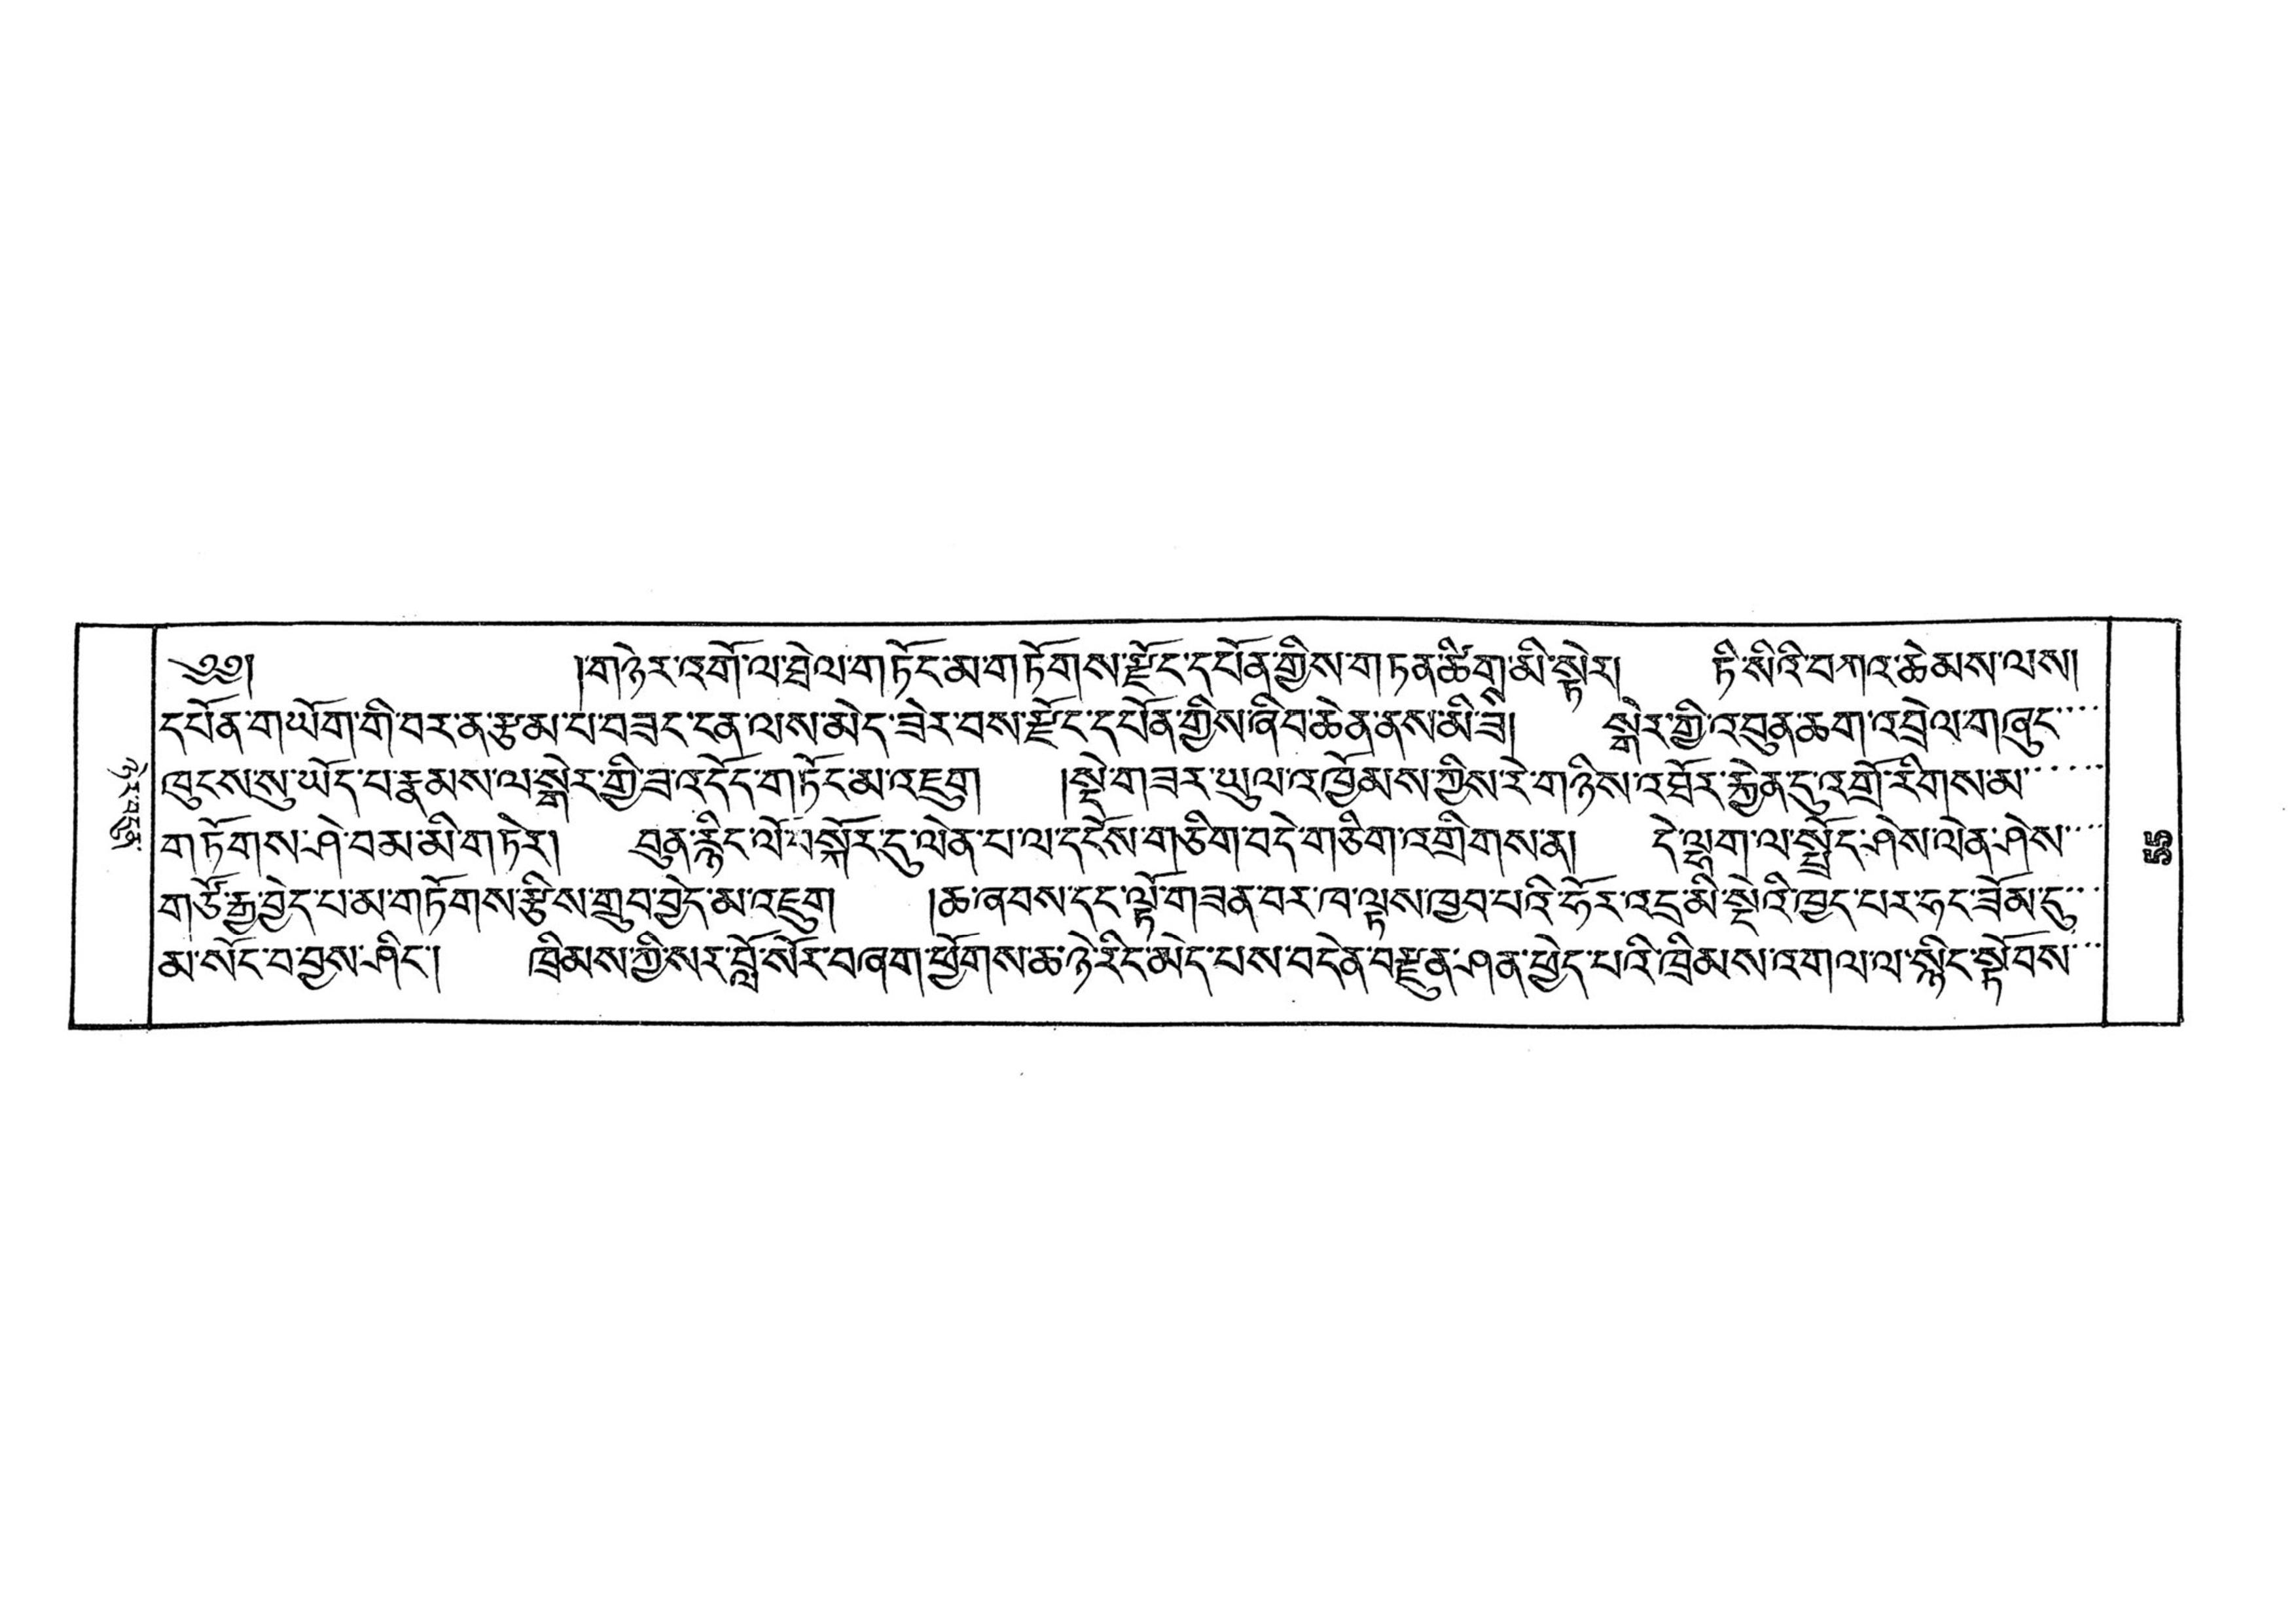ཉེར་བདུན་
༄༅།  །གཉེར་འགོ་ལ་ཐེལ་གཏོང་མ་གཏོགས་རྫོང་དཔོན་གྱིས་གཏན་ཚིགས་མི་སྟེར། ཏི་སིའི་བཀའ་ཆེམས་ལས།
དཔོན་གཡོག་གི་བར་ན་རྩམ་པ་བཟང་ངན་ལས་མེད་ཟེར་བས་རྫོང་དཔོན་གྱིས་ཞིབ་ཆེན་ནས་མི་ཟ། སྒེར་གྱི་འབུན་ཆག་འབྲེལ་གཞུང་་་་
ཁུངས་སུ་ཡོད་པ་རྣམས་ལ་སྒེར་གྱི་ཟ་འདོད་གཏོང་མ་འཇུག །སྡེ་གཟར་ཡུལ་འཁྱོམས་ཀྱིས་རེ་གཉིས་འཐོར་རྐྱེན་དུ་འགྲོ་རིགས་མ་་་་་
གཏོགས་ཤེ་བམ་མི་གཏེར། བུན་རྙིང་ལོ་བསྐོར་དུ་ལེན་པ་ལ་དངོས་གཅིག་བདེ་གཅིག་འགྲིགས་ན། དེ་ལྷག་ལ་སྤྲོད་ཤེས་ལེན་ཤེས་་་་
གཙོ་རྒྱ་བྱེད་པ་མ་གཏོགས་རྩིས་གྲུབ་བྱེད་མ་འཇུག །ཆ་ཞབས་དང་ལྟོ་གཟན་པར་ཁ་ལྟས་ཁྱབ་པའི་ཧོར་འདྲ་མི་སྡེའི་ཁྱད་པར་ཧང་ཟོམ་དུ་་་
མ་སོང་བ་བྱས་ཤིང་། ཁྲིམས་ཀྱི་སར་བློ་སོར་བཞག་ཕྱོགས་ཆ་ཉེ་རིང་མེད་པས་བདེན་བརྫུན་ཤན་ཕྱེད་པའི་ཁྲིམས་འགལ་ལ་སྙིང་སྟོབས་་་
